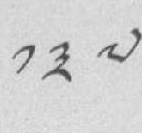༡༣༧
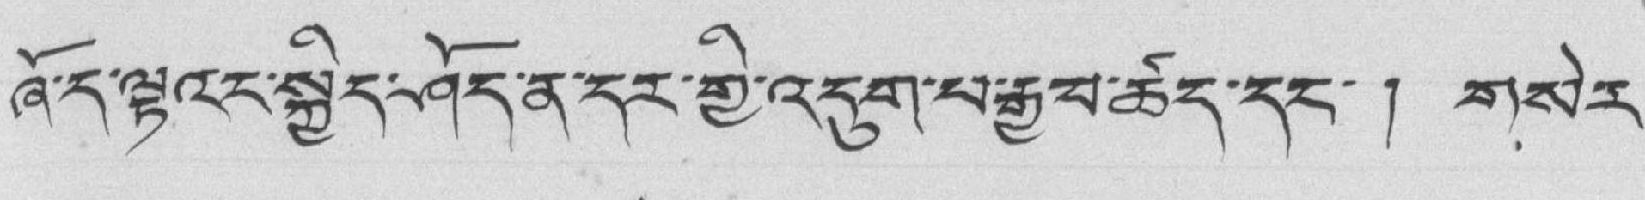ཞོ་ད་ལྟའང་སྐྱིད་ཤོད་ན་དར་གྱི་འདུག་པ་རྒྱབ་ཚད་དང་། གསེར་
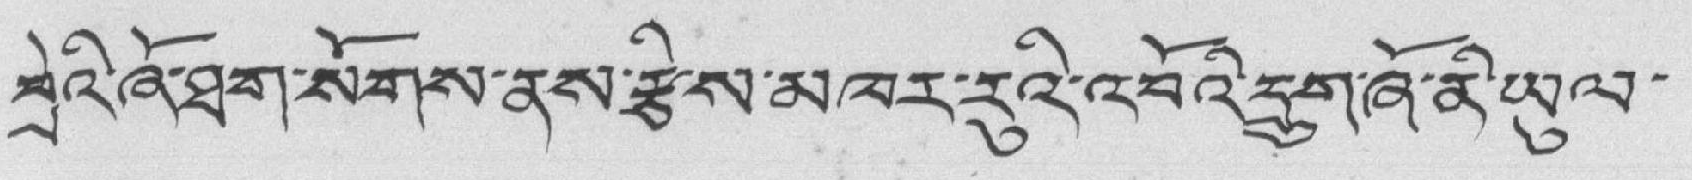བྲེའི་ཞོ་ཐག་སོགས་ནས་རྩིས་མཁར་རུའི་འབོའི་དྲུག་ཞོ་ནི་ཡུལ་
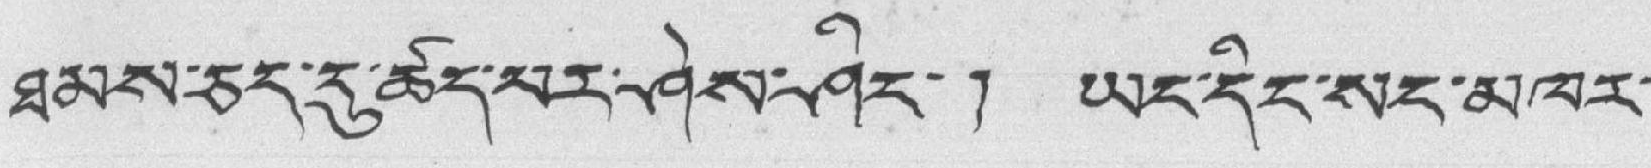ཐམས་ཅད་དུ་ཚད་པར་ཤེས་ཤིང་། ཡང་དིང་སང་མཁར་
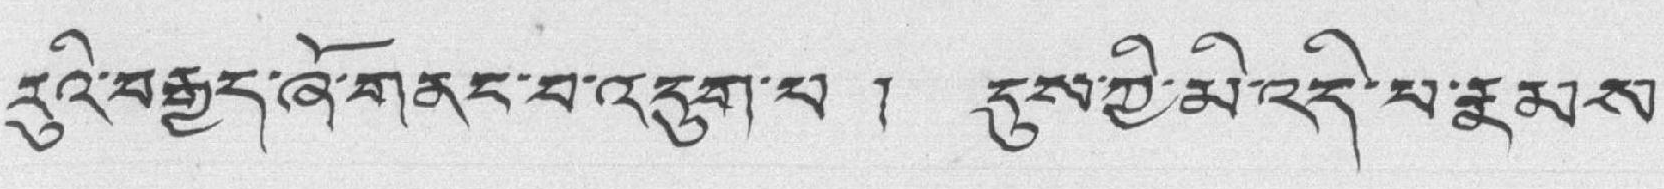རུའི་བརྒྱད་ཞོ་གནང་བ་འདུག་པ ། དུས་ཀྱི་མི་འདི་པ་རྣམས་
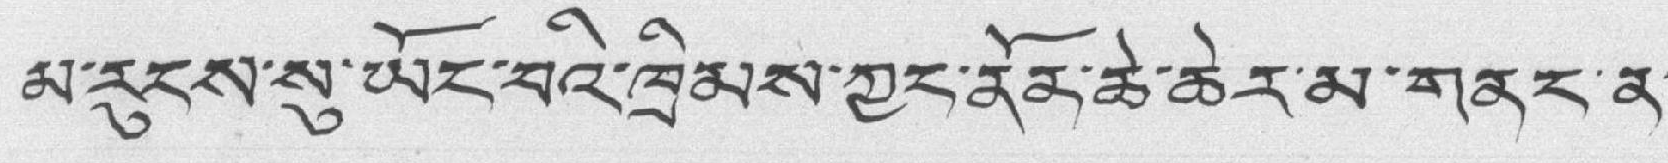མ་རུངས་སུ་ཡོང་བའི་ཁྲིམས་ཀྱང་ནོན་ཆེ་ཆེར་མ་གནང་ན་
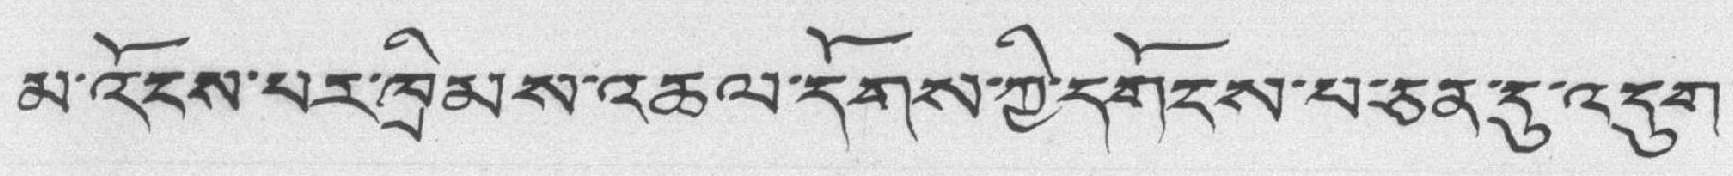མ་འོངས་པར་ཁྲིམས་འཆལ་དོགས་ཀྱི་དགོངས་པ་ཅན་དུ་འདུག་
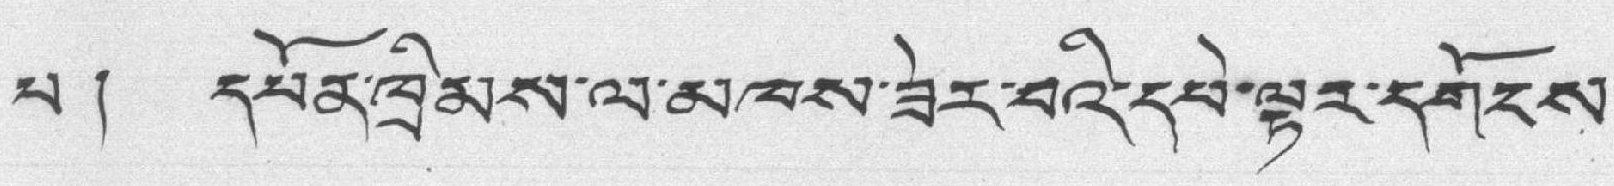པ ། དཔོན་ཁྲིམས་ལ་མཁས་ཟེར་བའི་དཔེ་ལྟར་དགོངས་
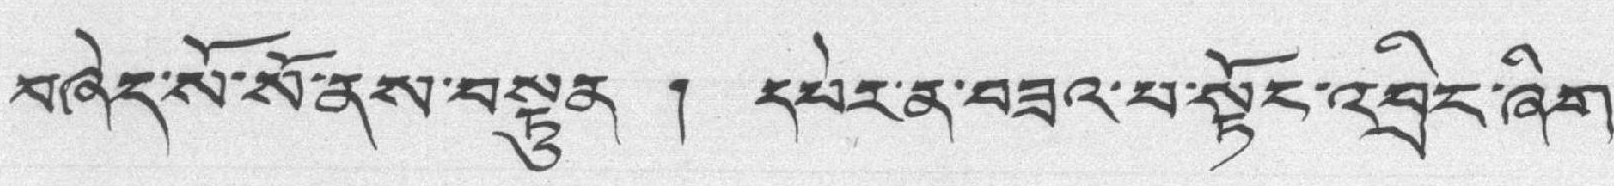བཞེད་སོ་སོ་ནས་བསྟུན ། དཔེར་ན་བཟའ་པ་སྟོང་འབྲིང་ཞིག་
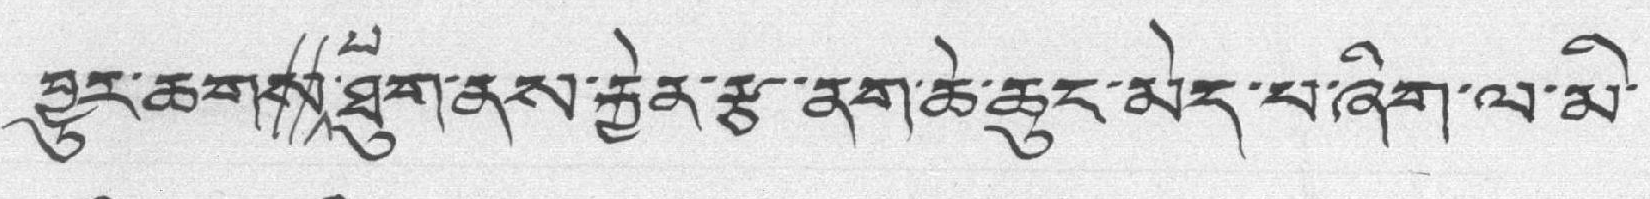བྱུར་ཆགས་པ་ཐུག་ནས་རྐྱེན་རྩ་ནག་ཆེ་ཆུང་མེད་པ་ཞིག་ལ་མི་
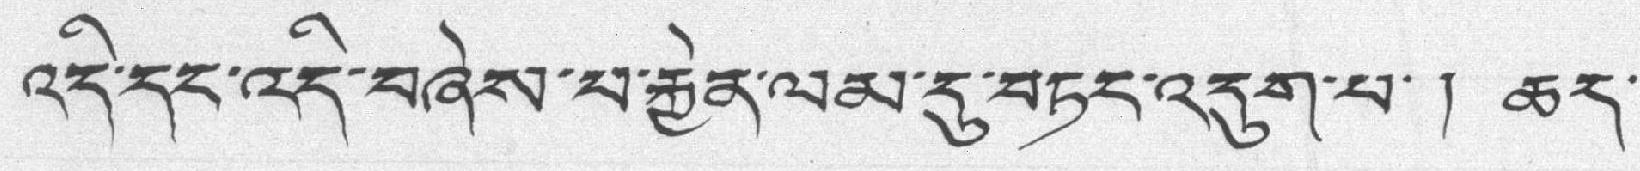འདི་དང་འདི་བཞེས་པ་རྐྱེན་ལམ་དུ་བཏང་འདུག་པ་ ། ཆད་
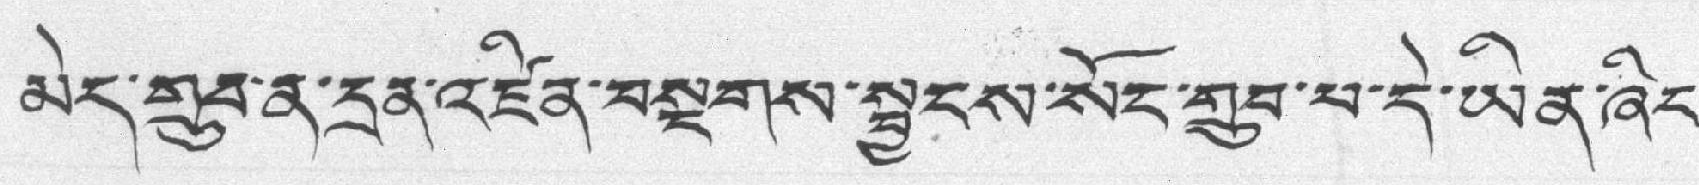མེད་གྲུབ་ན་དྲན་འཛིན་བསྔགས་སྦྱངས་སོང་གྲུབ་པ་དེ་ཡིན་ཞིང་
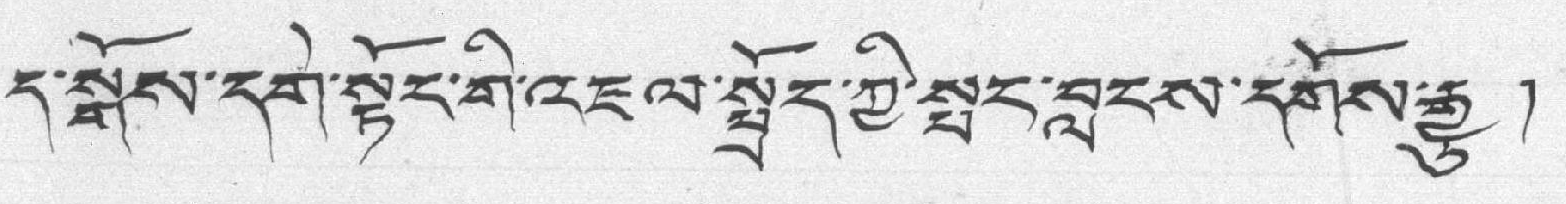ད་སྒོས་དགེ་སྟོང་གི་འཇལ་སྤྲོད་ཀྱི་སྤང་བླངས་དགོས་རྒྱུ།
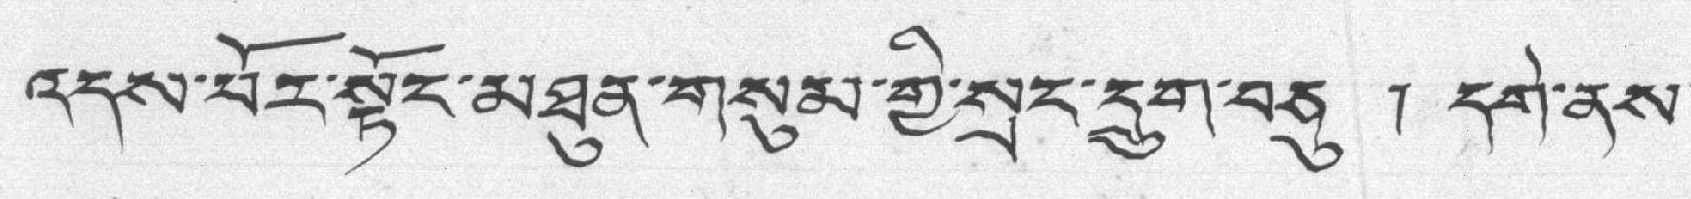འདས་པོར་སྟོང་མཐུན་གསུམ་གྱི་སྲང་དྲུག་བཅུ ། དགེ་ནས་
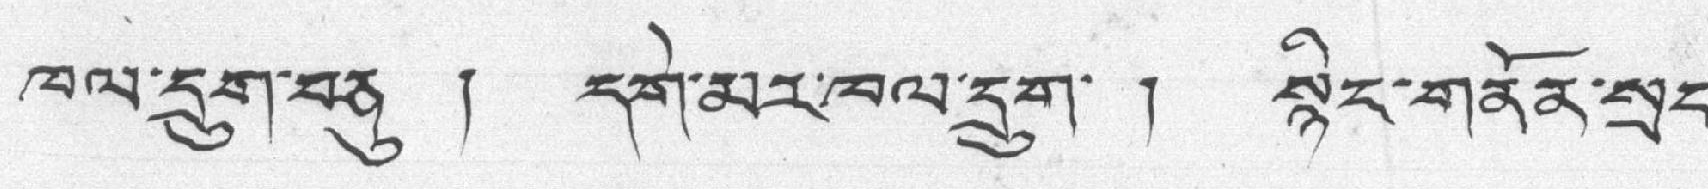ཁལ་དྲུག་བཅུ ། དགེ་མར་ཁལ་དྲུག་ ། སྙིང་གནོན་སྲང་
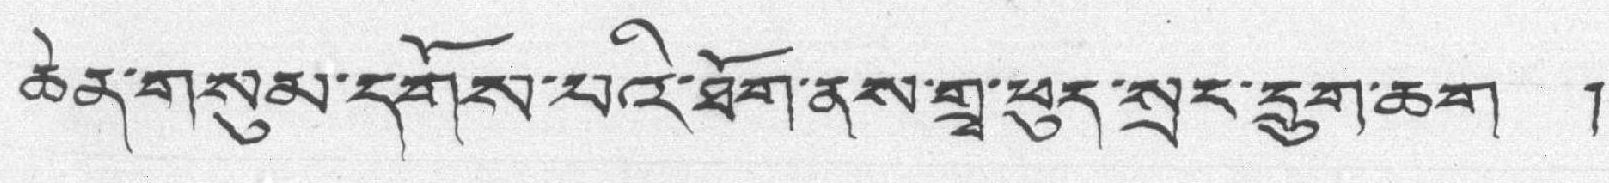ཆེན་གསུམ་དགོས་པའི་ཐོག་ནས་གྲྭ་ཕུད་སྲང་དྲུག་ཆག །
